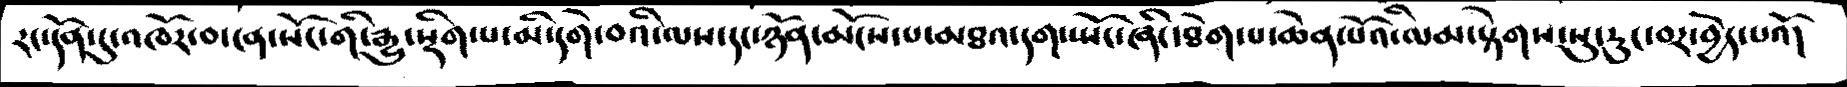རང་དོན་དུ་འཁོར་བ་ངན་སོང་གི་རྒྱུ་སྡིག་པ་མི་དགེ་བའི་ལས་དང་ཉོམ་མོངས་པ་མཐའ་དག་སྤོང་ཞིང་ཐེག་པ་ཆེན་པོའི་ལམ་སྟེགས་སུ་རུང་བར་བྱེད་པའོ།
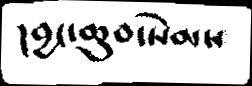།བྱང་ཆུབ་སེམས
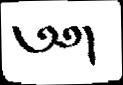༄༅།
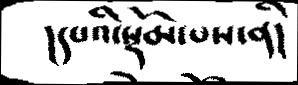།དཔའི་སྡོམ་པས་ནི།
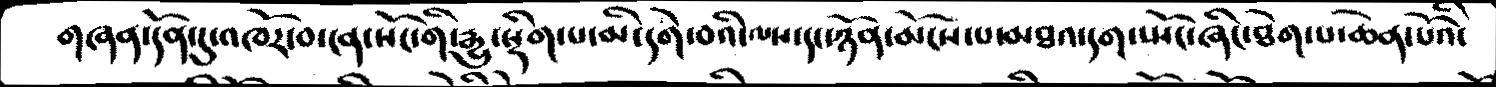གཞན་དོན་དུ་འཁོར་བ་ངན་སོང་གི་རྒྱུ་སྡིག་པ་མི་དགེ་བའི་ལས་དང་ཉོན་མོངས་པ་མཐའ་དག་སྤོང་ཞིང་ཐེག་པ་ཆེན་པོའི་
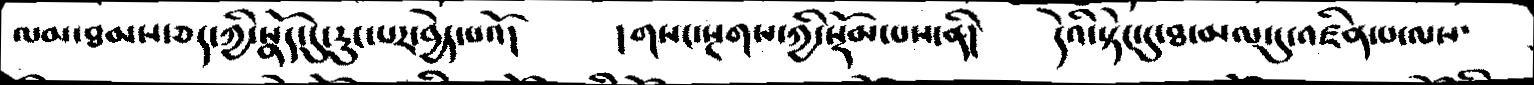ལམ་ཐམས་ཅད་ཀྱི་སྣོད་དུ་རུང་པར་བྱེད་པའོ།   །གསང་སྔགས་ཀྱི་སྡོམ་པས་ནི།   །དེའི་སྟེང་དུ་ཐ་མལ་དུ་འཛིན་པ་ལས་
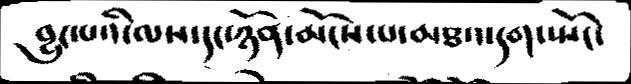བྱུང་པའི་ལས་དང་ཉོན་མོངས་པ་མཐའ་དག་སྤོང་
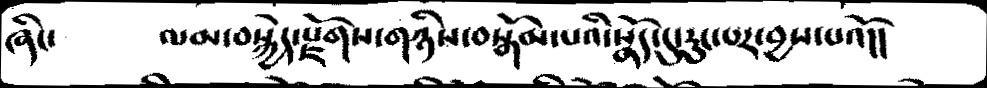ཞིང་   ལམ་བསྐྱེད་རྫོགས་གཉིས་བསྒོམ་པའི་སྣོད་དུ་རུང་པར་བྱས་པའོ།།
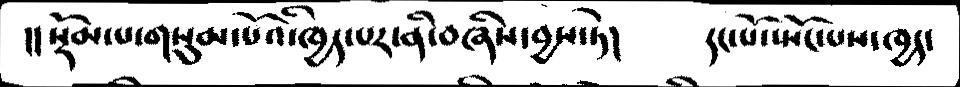།།སྡོམ་པ་གསུམ་པོའི་ཁྱད་པར་ནི་བཞིས་བྱས་ཏེ།   དང་པོ་སྤོང་པས་ཁྱད་
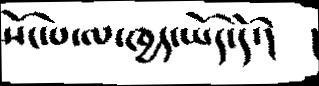སོང་པ་ལ་ཁྱད་ཡོད་དོ་།   །
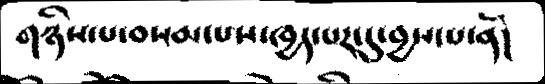གཉིས་པ་བསམ་པས་ཁྱད་པར་དུ་བྱས་པ་ནི།
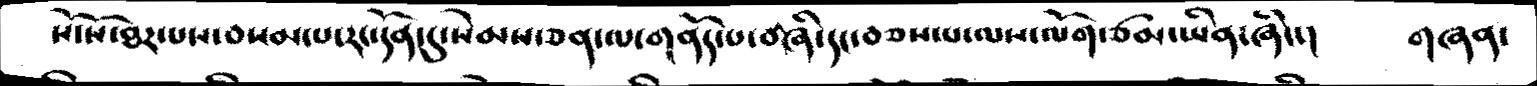སོ་སོ་ཐར་པས་བསམ་པ་རང་དོན་དུ་སེམས་ཅན་ལ་གནོད་པ་གཞི་དང་བཅས་པ་ལས་ལོག་ཙམ་ཡིན་ཞིང་།   གཞན་
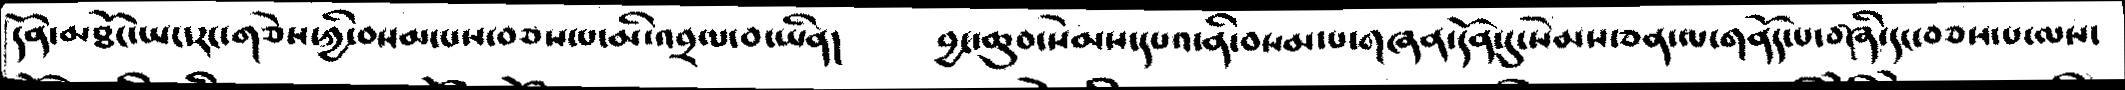དོན་མཐོང་ཡང་རང་གཅེས་ཀྱི་བསམ་པས་བཅས་པ་མི་འབྲལ་བ་ཡིན།   བྱང་ཆུབ་སེམས་དཔའ་ནི་བསམ་པ་གཞན་དོན་དུ་སེམས་ཅན་ལ་གནོད་པ་གཞི་དང་བཅས་པ་ལས་
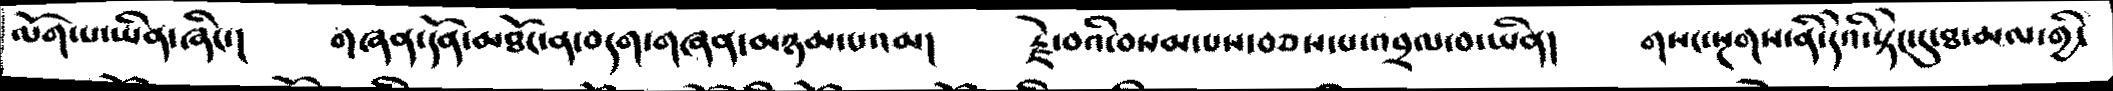ལོག་པ་ཡིན་ཞིང་།   གཞན་དོན་མཐོང་ན་བདག་གཞན་མཉམ་པའམ།   རྗེ་བའི་བསམ་པས་བཅས་པ་འབྲལ་བ་ཡིན།   གསང་སྔགས་ནི་དེའི་སྟེང་དུ་ཐ་མལ་གྱི་
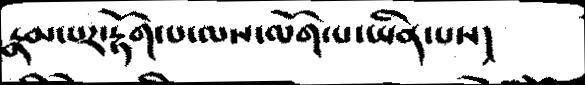རྣམ་པར་རྟོག་པ་ལས་ལོག་པ་ཡིན་པས།
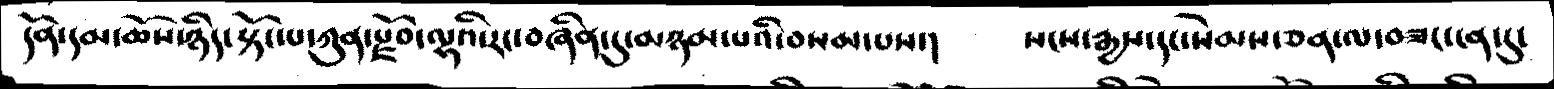དོན་དམ་ཆོས་ཉིད་སྟོང་པ་ཀུན་རྫོབ་ལྷའི་རང་བཞིན་དུ་མཉམ་པའི་བསམ་པས་།   སངས་རྒྱས་དང་སེམས་ཅན་ལ་བཟང་ངན་དུ་
